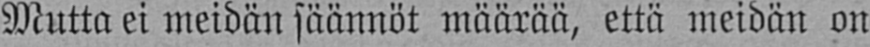Mutta ei meidän säännöt määrää, että meidän on
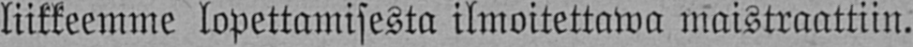liikkeemme lopettamisesta ilmoitettawa maistraattiin.
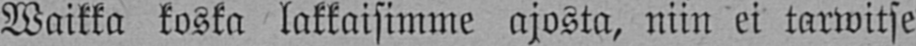Waikka koska lakkaisimme ajosta, niin ei tarwitse
